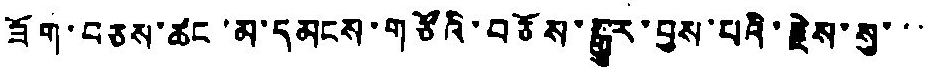ཟོག་བཅས་ཚང་མ་དམངས་གཙོའི་བཅོས་སྒྱུར་བྱས་པའི་རྗེས་སུ་་་
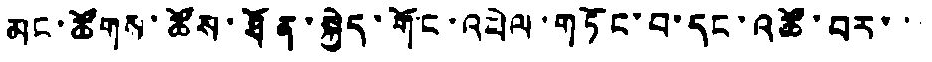མང་ཚོགས་ཚོས་ཐོན་སྐྱེད་གོང་འཕེལ་གཏོང་བ་དང་འཚོ་བར་་
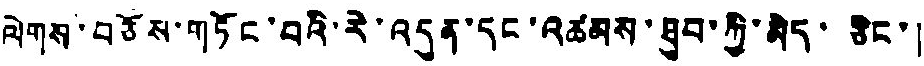ལེགས་བཅོས་གཏོང་བའི་རེ་འདུན་དང་འཚམས་ཐུབ་ཀྱི་མེད་ཅིང་།
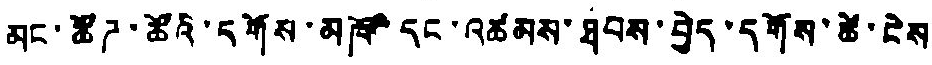མང་ཚོཌ་ཚོའི་དགོས་མཁོ་དང་འཚམས་ཐབས་བྱེད་དགོས་ཚེ་ངེས
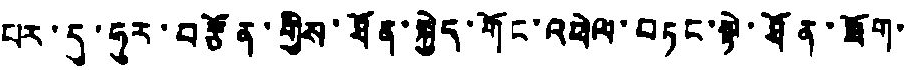པར་དུ་ཧུར་བརྩོན་གྱིས་ཐོན་སྐྱེད་གོང་འཕེལ་བཏང་སྟེ་ཐོན་ཟོག་
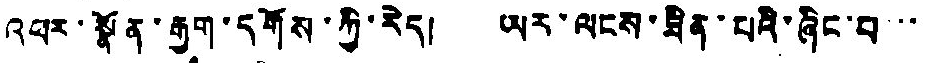འཕར་སྣོན་རྒྱག་དགོས་ཀྱི་རེད། ཡར་ལངས་ཟིན་པའི་ཞིང་བ་་་
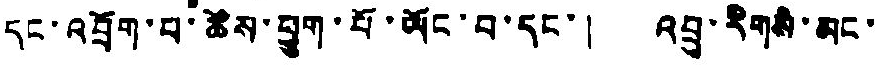དང་འབྲོག་པ་ཚོས་ཕྱག་པོ་ཡོང་བ་དང་། འབྲུ་རིགས་མང་་
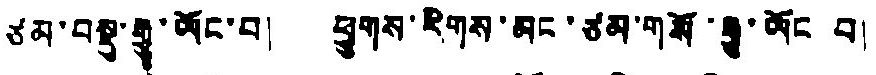ཙམ་བསྡུ་རྒྱུ་ཡོང་བ། ཕྱུགས་རིགས་མང་ཙམ་གསོ་རྒྱུ་ཡོང བ།
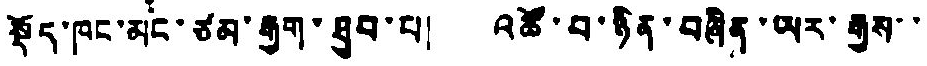སྡོད་ཁང་མང་ཙམ་རྒྱག་ཐུབ་པ། འཚོ་བ་ཉིན་བཞིན་ཡར་རྒྱས་་
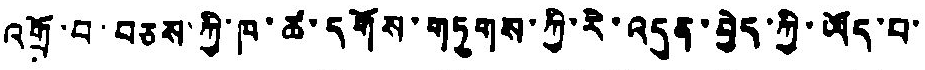འགྲོ་བ་བཅས་ཀྱི་ཁ་ཚ་དགོས་གཏུགས་ཀྱི་རི་འདུན་བྱེད་ཀྱི་ཡོད་པ་
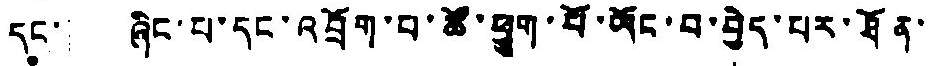དང་། ཞིང་པ་དང་འབྲོག་པ་ཚོ་ཕྱུག་པོ་ཡོང་བ་བྱེད་པར་ཐོན་
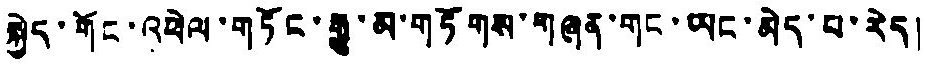སྐྱེད་གོང་འཕེལ་གཏོང་རྒྱུ་མ་གཏོགས་གཞན་གང་ཡང་མེད་པ་རེད།
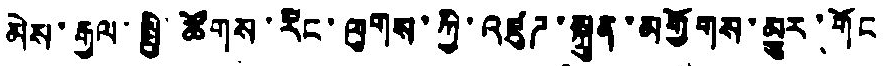མེས་རྒྱལ་སྤྱི་ཚོགས་རིང་ལུགས་ཀྱི་འཛུཌ་སྐྲུན་མགྱོགས་མྱུར་གོང
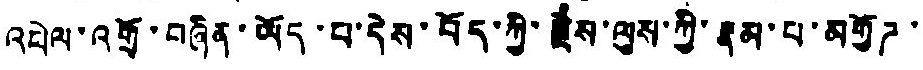འཕེལ་འགྲོ་བཞིན་ཡོད་པ་དེས་བོད་ཀྱི་རྗེས་ལུས་ཀྱི་རྣམ་པ་མགྱོཌ་
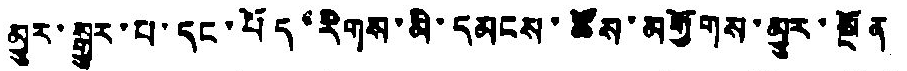མྱུར་སྒྱུར་པ་དང་བོད་རིགས་མི་དམངས་ཚོས་མགྱོགས་མྱུར་སྔོན
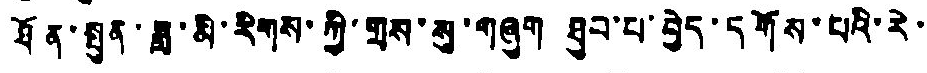ཐོན་སྤུན་ཟླ་མི་རིགས་ཀྱི་གྲས་སུ་གཞག ཐུབ་པ་བྱེད་དགོས་པའི་རེ་
